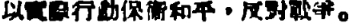以實際行動保衛和平，反對戰爭。
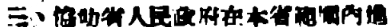三、協助省人民政府在本省範圍內進
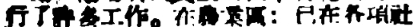行了許多工作。在農業區：已在各項社
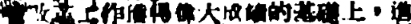會改革工作獲得偉大成績的基礎上，進
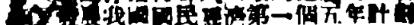一步發展我國國民經濟第一個五年計劃
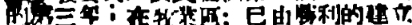的第三年；在牧業區：已由勝利的建立
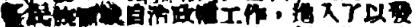了民族區域自治政權工作，進入了以發
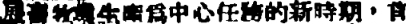展畜牧業生產爲中心任務的新時期，首
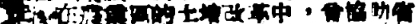先，在農業區的土地改革中，曾協助省
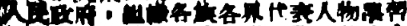人民政府，組織各族各界代表人物學習
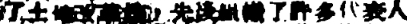了土地改革法，先後組織了許多代表人
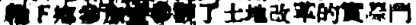物下鄉參加或參觀了土地改革的實際鬥
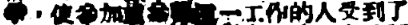爭，使參加或參觀這一工作的人受到了
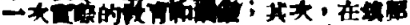一次實際的敎育和鍛鍊；其次，在鎮壓
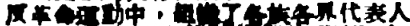反革命運動中，組織了各族各界代表人
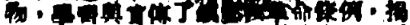物，學習與宣傳了鎮壓反革命條例，揭
